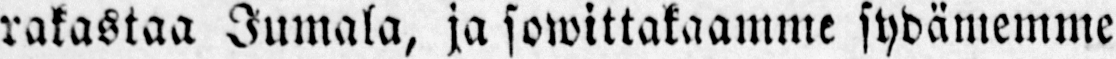rakastaa Jumala, ja sowittakaamme sydämemme
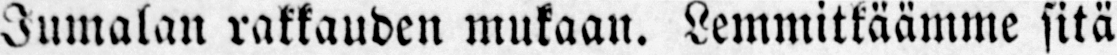Jumalan rakkauden mukaan. Lemmitkäämme sitä
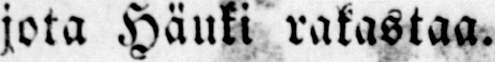jota Häuki rakastaa.
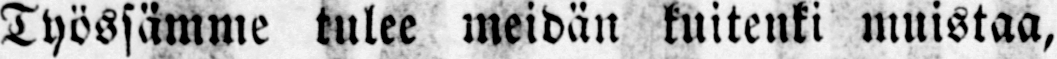Työssämme tulee meidän kuitenki muistaa,
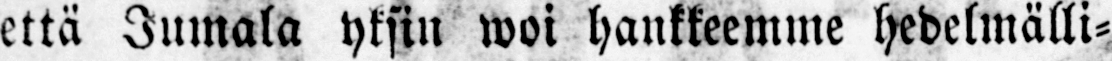että Jumala yksin woi hankkeemme hedelmälli-
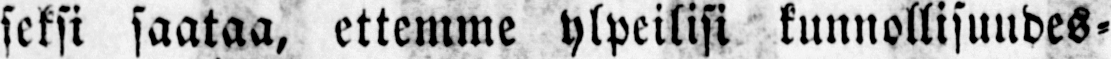seksi saakaa, ettemme ylpeilisi kunnollisuudes-
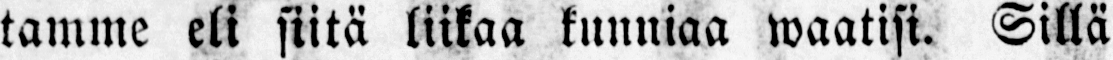tamme eli siitä liikaa kunniaa waatisi. Sillä
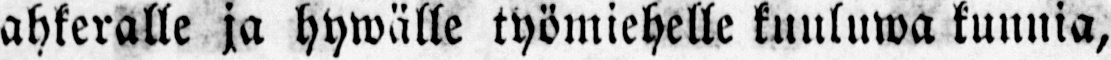ahkeralle ja hywälle työmiehelle kuuluwa kunnia,
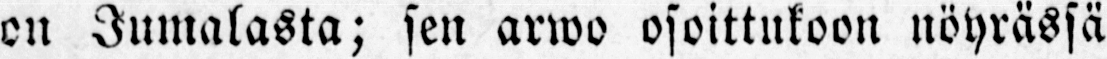on Jumalasta; sen arwo osoittukoon nöyrässä
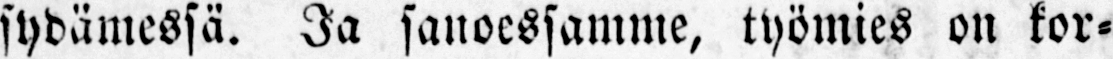sydämessä. Ja sanoessamme, työmies on kor-
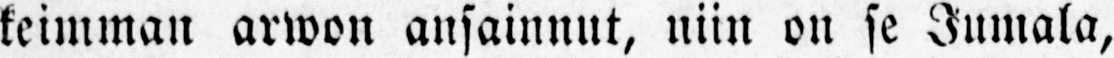keimman arwon ansainnut, niin on se Jumala,
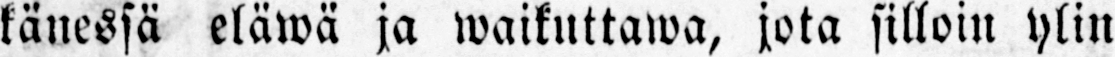känessä elämä ja waikuttama, jota silloin ylin
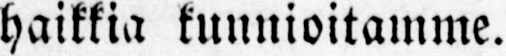haikkia kunnioitamme.
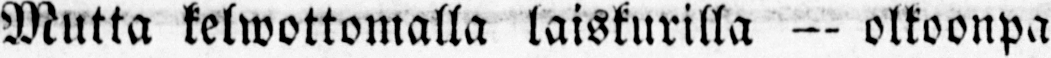Mutta kelwottomalla laiskurilla — olkoonpa
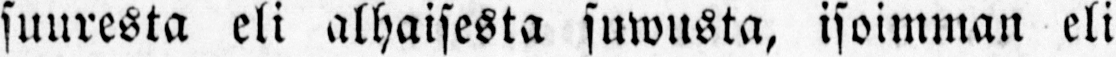suuresta eli alhaisesta suwusta, isoimman eli
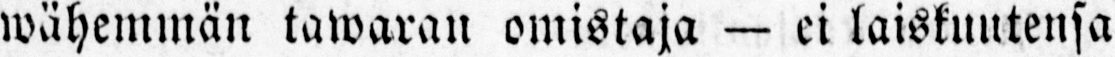wähemmän tawaran omistaja — ei laiskuutensa
